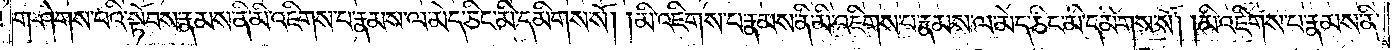གཤེགས་པའི་སྟོབས་རྣམས་ནི་མི་འཇིགས་པ་རྣམས་ལ་མེད་ཅིང་མི་དམིགས་སོ། །མི་འཇིགས་པ་རྣམས་ནི་མི་འཇིགས་པ་རྣམས་ལ་མེད་ཅིང་མི་དམིགས་སོ། །མི་འཇིགས་པ་རྣམས་ནི་
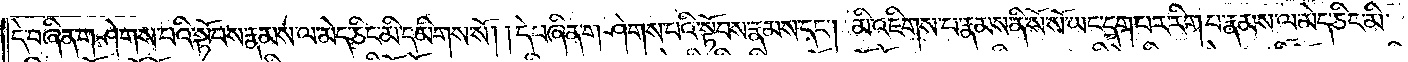དེ་བཞིན་གཤེགས་པའི་སྟོབས་རྣམས་ལ་མེད་ཅིང་མི་དམིགས་སོ། །དེ་བཞིན་གཤེགས་པའི་སྟོབས་རྣམས་དང༌། མི་འཇིགས་པ་རྣམས་ནི་སོ་སོ་ཡང་དག་པར་རིག་པ་རྣམས་ལ་མེད་ཅིང་མི་
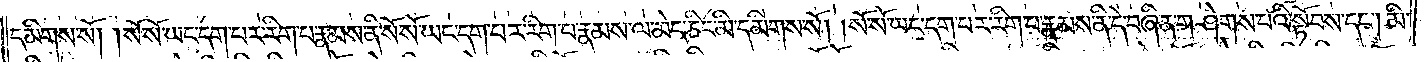དམིགས་སོ། །སོ་སོ་ཡང་དག་པར་རིག་པ་རྣམས་ནི་སོ་སོ་ཡང་དག་པར་རིག་པ་རྣམས་ལ་མེད་ཅིང་མི་དམིགས་སོ། །སོ་སོ་ཡང་དག་པར་རིག་པ་རྣམས་ནི་དེ་བཞིན་གཤེགས་པའི་སྟོབས་དང༌། མི་
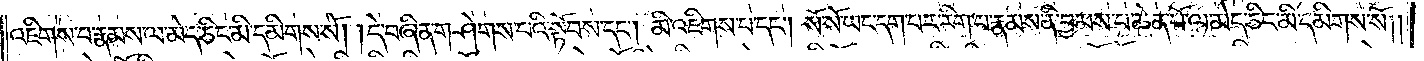འཇིགས་པ་རྣམས་ལ་མེད་ཅིང་མི་དམིགས་སོ། །དེ་བཞིན་གཤེགས་པའི་སྟོབས་དང༌། མི་འཇིགས་པ་དང༌། སོ་སོ་ཡང་དག་པར་རིག་པ་རྣམས་ནི་བྱམས་པ་ཆེན་པོ་ལ་མེད་ཅིང་མི་དམིགས་སོ། །
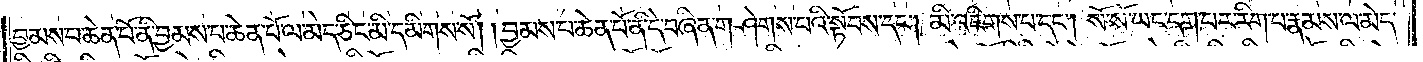བྱམས་པ་ཆེན་པོ་ནི་བྱམས་པ་ཆེན་པོ་ལ་མེད་ཅིང་མི་དམིགས་སོ། །བྱམས་པ་ཆེན་པོ་ནི་དེ་བཞིན་གཤེགས་པའི་སྟོབས་དང༌། མི་འཇིགས་པ་དང༌། སོ་སོ་ཡང་དག་པར་རིག་པ་རྣམས་ལ་མེད་
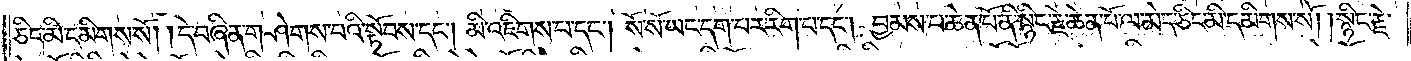ཅིང་མི་དམིགས་སོ། །དེ་བཞིན་གཤེགས་པའི་སྟོབས་དང༌། མི་འཇིགས་པ་དང༌། སོ་སོ་ཡང་དག་པར་རིག་པ་དང༌། བྱམས་པ་ཆེན་པོ་ནི་སྙིང་རྗེ་ཆེན་པོ་ལ་མེད་ཅིང་མི་དམིགས་སོ། །སྙིང་རྗེ་
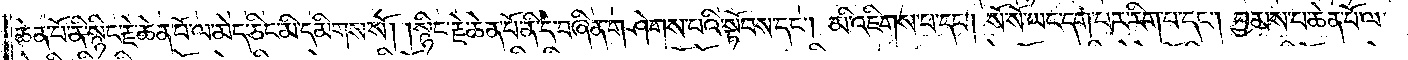ཆེན་པོ་ནི་སྙིང་རྗེ་ཆེན་པོ་ལ་མེད་ཅིང་མི་དམིགས་སོ།སྙིང་རྗེ་ཆེན་པོ་ནི་དེ་བཞིན་གཤེགས་པའི་སྟོབས་དང༌། མི་འཇིགས་པ་དང༌། སོ་སོ་ཡང་དག་པར་རིག་པ་དང༌། བྱམས་པ་ཆེན་པོ་ལ་
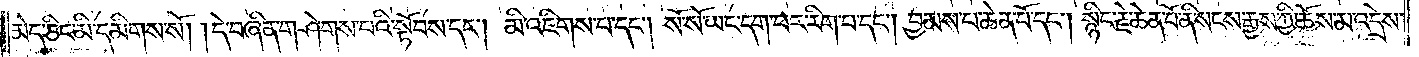མེད་ཅིང་མི་དམིགས་སོ། །དེ་བཞིན་གཤེགས་པའི་སྟོབས་དང༌། མི་འཇིགས་པ་དང༌། སོ་སོ་ཡང་དག་པར་རིག་པ་དང༌། བྱམས་པ་ཆེན་པོ་དང༌། སྙིང་རྗེ་ཆེན་པོ་ནི་སངས་རྒྱས་ཀྱི་ཆོས་མ་འདྲེས་
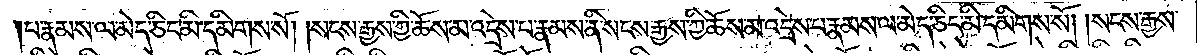པ་རྣམས་ལ་མེད་ཅིང་མི་དམིགས་སོ། །སངས་རྒྱས་ཀྱི་ཆོས་མ་འདྲེས་པ་རྣམས་ནི་སངས་རྒྱས་ཀྱི་ཆོས་མ་འདྲེས་པ་རྣམས་ལ་མེད་ཅིང་མི་དམིགས་སོ། །སངས་རྒྱས་
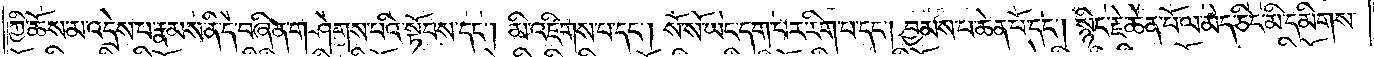ཀྱི་ཆོས་མ་འདྲེས་པ་རྣམས་ནི་དེ་བཞིན་གཤེགས་པའི་སྟོབས་དང༌། མི་འཇིགས་པ་དང༌། སོ་སོ་ཡང་དག་པར་རིག་པ་དང༌། བྱམས་པ་ཆེན་པོ་དང༌། སྙིང་རྗེ་ཆེན་པོ་ལ་མེད་ཅིང་མི་དམིགས་
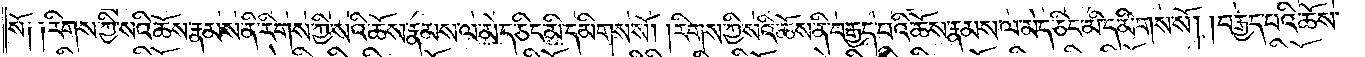སོ། །རིགས་ཀྱི་སའི་ཆོས་རྣམས་ནི་རིགས་ཀྱི་སའི་ཆོས་རྣམས་ལ་མེད་ཅིང་མི་དམིགས་སོ། །རིགས་ཀྱི་སའི་ཆོས་ནི་བརྒྱད་པའི་ཆོས་རྣམས་ལ་མེད་ཅིང་མི་དམིགས་སོ། །བརྒྱད་པའི་ཆོས་
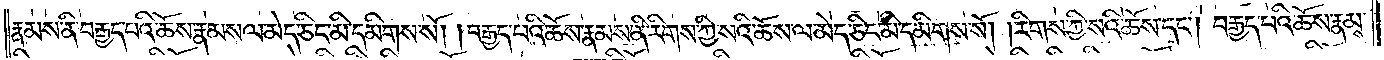རྣམས་ནི་བརྒྱད་པའི་ཆོས་རྣམས་ལ་མེད་ཅིང་མི་དམིགས་སོ། །བརྒྱད་པའི་ཆོས་རྣམས་ནི་རིགས་ཀྱི་སའི་ཆོས་ལ་མེད་ཅིང་མི་དམིགས་སོ། །རིགས་ཀྱི་སའི་ཆོས་དང༌། བརྒྱད་པའི་ཆོས་རྣམས་
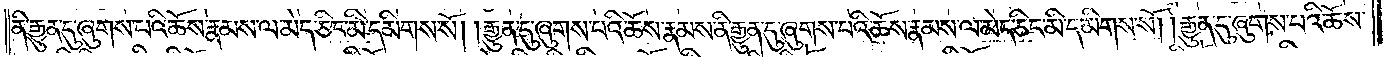ནི་རྒྱུན་དུ་ཞུགས་པའི་ཆོས་རྣམས་ལ་མེད་ཅིང་མི་དམིགས་སོ། །རྒྱུན་དུ་ཞུགས་པའི་ཆོས་རྣམས་ནི་རྒྱུན་དུ་ཞུགས་པའི་ཆོས་རྣམས་ལ་མེད་ཅིང་མི་དམིགས་སོ། །རྒྱུན་དུ་ཞུགས་པའི་ཆོས་
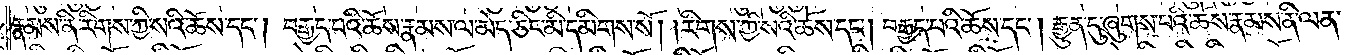རྣམས་ནི་རིགས་ཀྱི་སའི་ཆོས་དང༌། བརྒྱད་པའི་ཆོས་རྣམས་ལ་མེད་ཅིང་མི་དམིགས་སོ། །རིགས་ཀྱི་སའི་ཆོས་དང༌། བརྒྱད་པའི་ཆོས་དང༌། རྒྱུན་དུ་ཞུགས་པའི་ཆོས་རྣམས་ནི་ལན་
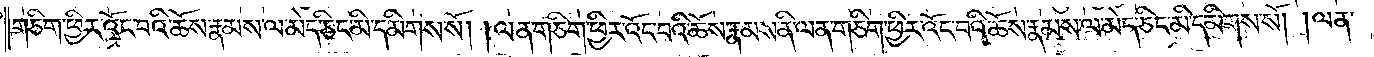གཅིག་ཕྱིར་འོང་བའི་ཆོས་རྣམས་ལ་མེད་ཅིང་མི་དམིགས་སོ། །ལན་གཅིག་ཕྱིར་འོང་བའི་ཆོས་རྣམས་ནི་ལན་གཅིག་ཕྱིར་འོང་བའི་ཆོས་རྣམས་ལ་མེད་ཅིང་མི་དམིགས་སོ། །ལན་
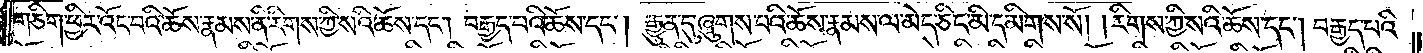གཅིག་ཕྱིར་འོང་བའི་ཆོས་རྣམས་ནི་རིགས་ཀྱི་སའི་ཆོས་དང༌། བརྒྱད་པའི་ཆོས་དང༌། རྒྱུན་དུ་ཞུགས་པའི་ཆོས་རྣམས་ལ་མེད་ཅིང་མི་དམིགས་སོ། །རིགས་ཀྱི་སའི་ཆོས་དང༌། བརྒྱད་པའི་
